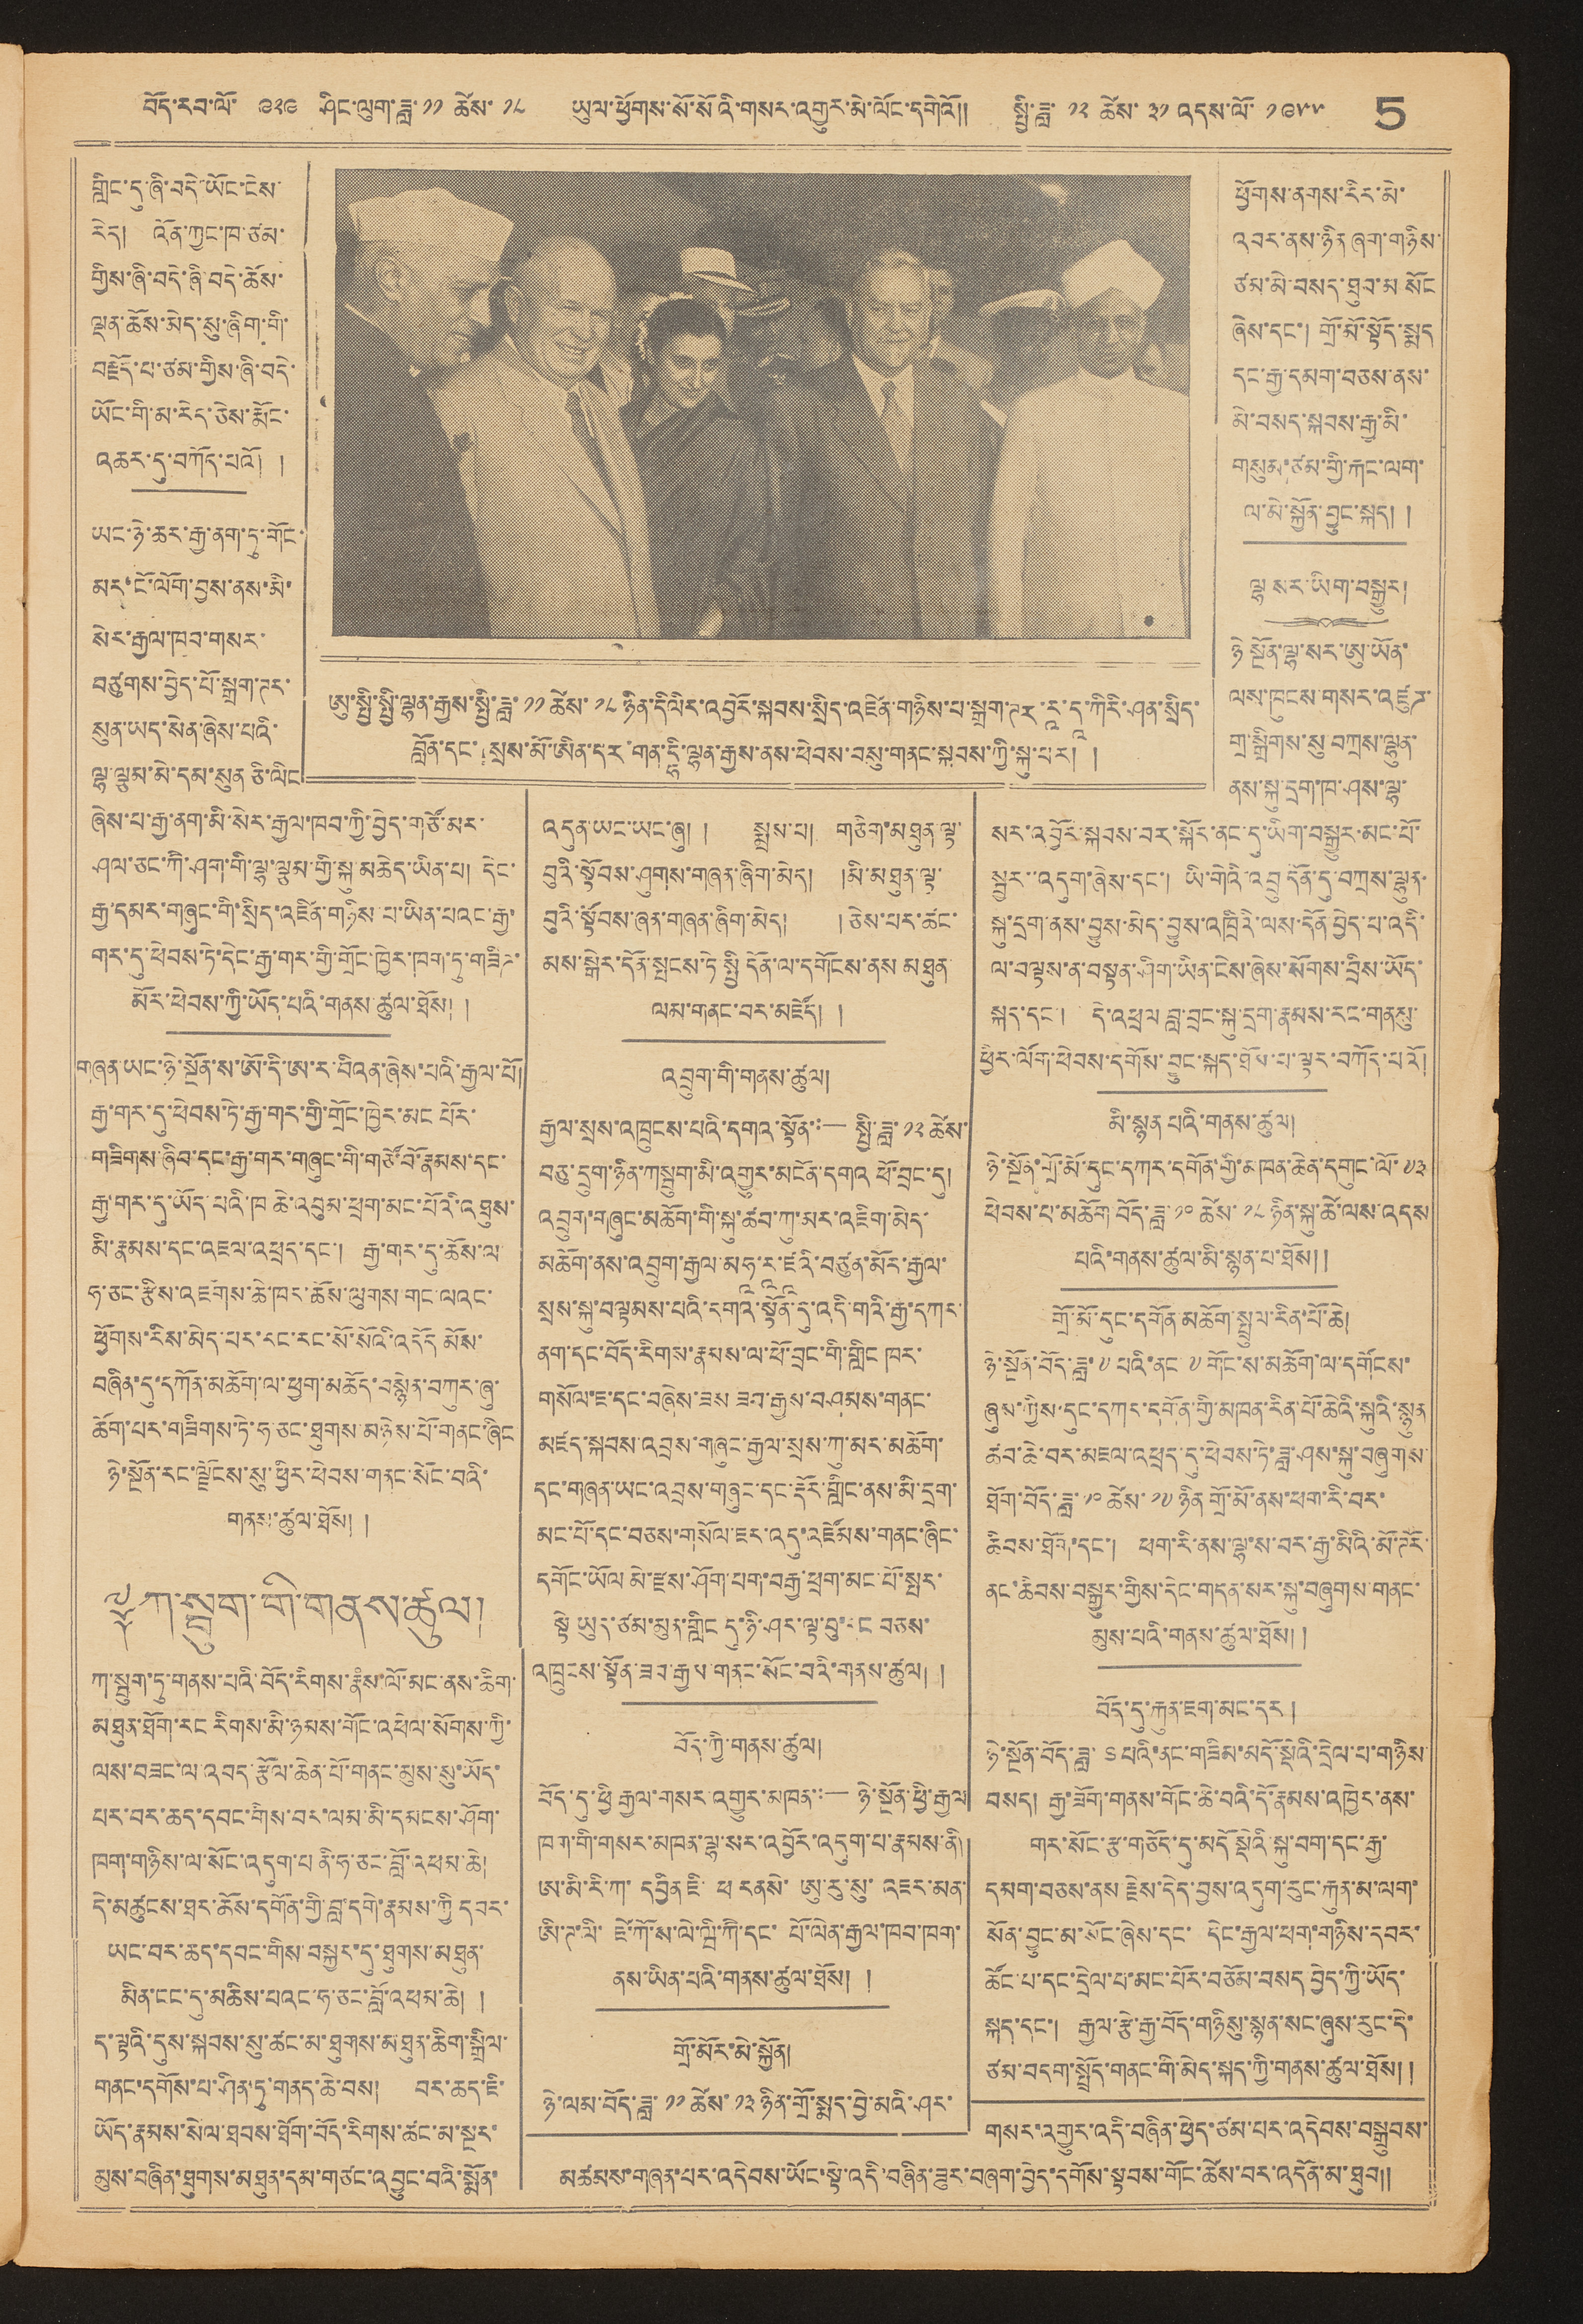བོད་རབ་ལོ་ ༩༢༩ ཤིང་ལུག་ཟླ་ ༡༡ ཚེས་ ༡༨ ཡུལ་ཕྱོགས་སོ་སོའི་གསར་འགྱུར་མེ་ལོང་དགེའོ།།  སྤྱི་ཟླ་ ༡༢ ཚེས་ ༣༡ འདས་ལོ་ ༡༩༥༥ 5
གླིང་དུ་ཞི་བདེ་ཡོང་ངེས་
རེད། འོན་ཀྱང་ཁ་ཙམ་
གྱིས་ཞི་བདེ་ཞི་བདེ་ཆོས་
ལྡན་ཆོས་མེད་སུ་ཞིག་གི་
བརྗོད་པ་ཙམ་གྱིས་ཞི་བདེ་
ཡོང་གི་མ་རེད་ཅེས་རྨོང་
འཆར་དུ་བཀོད་པའོ།  །
ཡང་ཉེ་ཆར་རྒྱ་ནག་ཏུ་གོང་
མར་ངོ་ལོག་བྱས་ནས་མི་
སེར་རྒྱལ་ཁབ་གསར་
བཙུགས་བྱེད་པོ་སྒྲག་ཊར་
སུན་ཡད་སེན་ཞེས་པའི་
ལྷ་ལྕམ་མེ་དམ་སུན ཅི་ལིང
ཞེས་པ་རྒྱ་ནག་མི་སེར་རྒྱལ་ཁབ་ཀྱི་བྱེད་གཙོ་མར་
ཤལ་ཅང་ཀཻ་ཤག་གི་ལྷ་ལྕམ་གྱི་སྐུ་མཆེད་ཡིན་པ། དེང་
རྒྱ་དམར་གཞུང་གི་སྲིད་འཛིན་གཉིས་པ་ཡིན་པའང་རྒྱ་
གར་དུ་ཕེབས་ཏེ་དེང་རྒྱ་གར་གྱི་གྲོང་ཁྱེར་ཁག་ཏུ་གཟིཌ་
མོར་ཕེབས་ཀྱི་ཡོད་པའི་གནས་ཚུལ་ཐོས། །
གཞན་ཡང་ཉེ་སྔོན་ས་ཨོ་དི་ཨ་ར་བིའན་ཞེས་པའི་རྒྱལ་པོ།
རྒྱ་གར་དུ་ཕེབས་ཏེ་རྒྱ་གར་གྱི་གྲོང་ཁྱེར་མང པོར་
གཟིགས་ཞིབ་དང་རྒྱ་གར་གཞུང་གི་གཙོ་བོ་རྣམས་དང་
རྒྱ་གར་དུ་ཡོད་པའི་ཁ ཆེ་འབུམ་ཕྲག་མང་པོའི་འཐུས་
མི་རྣམས་དང་འཇལ་འཕྲད་དང་། རྒྱ་གར་དུ་ཆོས་ལ་
ཧ་ཅང་རྩིས་འཇོགས་ཆེ་ཁར་ཆོས་ལུགས་གང་ལའང་
ཕྱོགས་རིས་མེད་པར་རང་རང་སོ་སོའི་འདོད མོས་
བཞིན་དུ་དཀོན་མཆོག་ལ་ཕྱག་མཆོད་བསྙེན་བཀུར་ཞུ་
ཆོག་པར་གཟིགས་ཏེ་ཧ་ཅང་ཐུགས་མཉེས་པོ་གནང་ཞིང
ཉེ་སྔོན་རང་ལྗོངས་སུ་ཕྱིར་ཕེབས་གནང་སོང་བའི་
གནས་ཚུལ་ཐོས། །
༈ ཀ་སྦུག་གི་གནས་ཚུལ།།
ཀ་སྦུག་ཏུ་གནས་པའི་བོད་རིགས་རྣཾས་ལོ་མང་ནས་ཆིག་
མཐུན་ཐོག་རང རིགས་མི་ཉམས་གོང་འཕེལ་སོགས་ཀྱི་
ལས་བཟང་ལ་འབད་རྩོལ་ཆེན་པོ་གནང་མུས་སུ་ཡོད་
པར་བར་ཆད་དབང་གིས་བར་ལམ་མི་དམངས་ཤོག་
ཁག་གཉིས་ལ་སོང་འདུག་པ ནི་ཧ་ཅང་བློ་འཕམ་ཆེ།
དེ་མཚུངས་ཐར་ཆོས་དགོན་གྱི་བླ་དགེ་རྣམས་ཀྱི དབར་
ཡང་བར་ཆད་དབང་གིས་བསྐྱར་དུ་ཐུགས་མཐུན་
མིན་ངང་དུ་མཆིས་པའང་ཧ་ཅང་བློ་འཕམ་ཆེ། །
ད་ལྟའི་དུས་སྐབས་སུ་ཚང་མ་ཐུགས་མཐུན་ཆིག་སྒྲིལ་
གནང་དགོས་པ་ཤིན་ཏུ་གནད་ཆེ་བས། བར་ཆད་ཇི་
ཡོད་རྣམས་སེལ་ཐབས་ཐོག་བོད་རིགས་ཚང་མ་སྔར་
མུས་བཞིན་ཐུགས་མཐུན་དམ་གཙང་འབྱུང་བའི་སྨོན་
འདུན་ཡང་ཡང་ཞུ། །     སྨྲས་པ།  གཅིག་མཐུན་ལྟ་
བུའི་སྟོབས་ཤུགས་གཞན་ཞིག་མེད།   །མི་མཐུན་ལྟ་
བུའི་སྟོབས་ཞན་གཞན་ཞིག་མེད།    ། ཅེས་པར་ཚང་
མས་སྒེར་དོན་སྤངས་ཏེ་སྤྱི དོན་ལ་དགོངས་ནས མཐུན་
ལམ་གནང་བར་མཛེད།  །
འབྲུག་གི་གནས་ཚུལ།།
རྒྱལ་སྲས་འཁྲུངས་པའི་དགའ་སྟོན་:— སྤྱི་ཟླ་ ༡༢ ཚེས་
བཅུ་དྲུག་ཉིན་ཀ སྦུག་མི་འགྱུར་མངོན་དགའ ཕོ་བྲང་དུ།
འབྲུག་གཞུང་མཆོག་གི་སྐུ་ཚབ་ཀུ་མར་འཇིག་མེད་
མཆོག་ནས་འབྲུག་རྒྱལ་མ ཧཱ་རཱ་ཛཱའི་བཙུན་མོར་རྒྱལ་
སྲས་སྐུ་བལྟམས་པའི་དགའ་སྟོན་དུ་འདི་གའི་རྒྱ་དཀར་
ནག་དང་བོད་རིགས་རྣམས་ལ་ཕོ་བྲང་གི་གླིང ཁར་
གསོལ་ཇ་དང་བཞེས་ཟས ཟབ་རྒྱས་བཤམས་གནང་
མཛད་སྐབས་འབྲས་གཞུང་རྒྱལ་སྲས་ཀུ་མར་མཆོག་
དང་གཞན་ཡང་འབྲས་གཞུང་དང་རྡོར་གླིང་ནས་མི་དྲག་
མང་པོ་དང་བཅས་གསོལ་ཇར་འདུ་འཛོམས་གནང་ཞིང་
དགོང་ཡོལ མེ་རྫས་ཤོག་པག་བརྒྱ་ཕྲག་མང་པོ་སྤར་
སྟེ ཡུད་ཙམ་མུན་གླིང དུ་ཉི་ཤར་ལྟ་བུ་དང བཅས་
འཁྲུངས་སྟོན་ཟབ་རྒྱས་གནང་སོང་བའི་གནས་ཚུལ།  །
བོད་ཀྱི་གནས་ཚུལ།
བོད་དུ་ཕྱི རྒྱལ་གསར་འགྱུར་མཁན་:— ཉེ་སྔོན་ཕྱི་རྒྱལ
ཁག་གི་གསར་མཁན་ལྷ་སར་འབྱོར་འདུག་པ་རྣམས་ནི།
ཨ་མི་རི་ཀ་ དབྱིན ཇི་ ཕ རནསེ་ ཨུ་རུ་སུ་ འཇར་མན་
ཨི་ཊ་ལི་ ཛེ་ཀོ་ས་ལེ་ཝི་ཀཻ་དང་ པོ་ལེན་རྒྱལ་ཁབ་ཁག་
ནས་ཡིན་པའི་གནས་ཚུལ་ཐོས། །
གྲོ་མོར་མེ་སྐྱོན།
ཉེ་ལམ་བོད་ཟླ་ ༡༡ ཚེས་ ༡༣ ཉིན་གྲོ་སྨད་བྱེ་མའི་ཤར་
ཕྱོགས་ནགས་རིར་མེ་
འབར་ནས་ཉིན ཞག་གཉིས་
ཙམ་མེ་བསད་ཐུབ་མ སོང
ཞེས་དང་། གྲོ་མོ་སྟོད་སྨད
དང་རྒྱ་དམག་བཅས་ནས་
མེ་བསད་སྐབས་རྒྱ་མི་
གསུམ་ཙམ་གྱི་རྐང་ལག་
ལ་མེ་སྐྱོན་བྱུང་སྐད། །
ཨུ་སྤྱི་སྤྱི་ལྷན་རྒྱས་སྤྱི་ཟླ་ ༡༡ ཚེས་ ༡༨ ཉིན་དི ལིར་འབྱོར་སྐབས་སྲིད་འཛིན་གཉིས་པ་སྒྲག་ཊར་རཱ་དཱ་ཀིརི་ཤན་སྲིད་
བློན་དང་། སྲས་མོ་ཨིན་དར་གན་དྷི་ལྷན་རྒྱས་ནས་ཕེབས་བསུ་གནང་སྐབས་ཀྱི་སྐུ་པར། །
ལྷ སར་ཡིག་བསྒྱུར།
ཉེ སྔོན་ལྷ་སར་ཨུ་ཡོན་
ལས་ཁུངས་གསར་འཛུཌ་
གྲ་སྒྲིགས་སུ་བཀྲས་ལྷུན་
ནས་སྐུ་དྲག་ཁ་ཤས་ལྷ་
སར་འབྱོར་སྐབས་བར་སྐོར་ནང་དུ་ཡིག་བསྒྱུར་མང་པོ་
སྦྱར་་འདུག་ཞེས་དང་། ཡི་གེའི་འབྲུ དོན་དུ་བཀྲས་ལྷུན་
སྐུ་དྲག་ནས་བྱུས་མེད་བྱུས་འཁྲིའི་ལས་དོན་བྱེད་པ་འདི་
ལ་བལྟས་ན་བསྟན་ཤིག་ཡིན་ངེས་ཞེས་སོགས་བྲིས་ཡོད་
སྐད་དང་། དེ་འཕྲལ བླ་བྲང་སྐུ་དྲག་རྣམས་རང་གནསུ་
ཕྱིར་ལོག་ཕེབས་དགོས་བྱུང་སྐད་ཐོས་པ་ལྟར་བཀོད་པའོ།
མི་སྙན་པའི་གནས་ཚུལ།
ཉེ་སྔོན་གྲོ་མོ་དུང་དཀར་དགོན་གྱི་མཁན་ཆེན་དགུང་ལོ་ ༧༣
ཕེབས་པ་མཆོག་བོད་ཟླ་ ༡༠ ཚེས་ ༡༨ ཉིན་སྐུ་ཚེ་ལས་འདས
པའི་གནས་ཚུལ་མི་སྙན་པ་ཐོས།།
གྲོ་མོ་དུང་དགོན་མཆོག་སྤྲུལ་རིན་པོ་ཆེ།
ཉེ་སྔོན་བོད་ཟླ་ ༧ པའི་ནང ༸གོང་ས་མཆོག་ལ་དགོངས་
ཞུས་ཀྱིས་དུང་དཀར་དགོན་གྱི་མཁན་རིན་པོ་ཆེའི་སྐུའི་སྙུན
ཚབ་ཆེ་བར་མཇལ་འཕྲད་དུ་ཕེབས་ཏེ་ཟླ་ཤས་སྐུ་བཞུགས་
ཐོག་བོད་ཟླ་ ༡༠ ཚེས་ ༡༧ ཉིན གྲོ་མོ་ནས་ཕག་རི་བར་
ཆིབས་ཐོག་དང་། ཕག་རི་ནས་ལྷ་ས་བར་རྒྱ་མིའི་མོ་ཊོར་
ནང་ཆིབས་བསྒྱུར་གྱིས་དེང་གདན་སར་སྐུ་བཞུགས་གནང་
མུས་པའི་གནས་ཚུལ་ཐོས། །
བོད་དུ་རྐུན་ཇག་མང་དར །
ཉེ་སྔོན་བོད་ཟླ་ ༦ པའི་ནང་གཟིམ་མདོ་སྡེའི་དྲེལ་པ་གཉིས་
བསད། རྒྱ་ཟོག་གནས་གོང་ཆེ་བའི་དོ་རྣམས་འཁྱེར་ནས་
གར་སོང་རྩ་གཅོད་དུ་མདོ སྡེའི་སྐུ་བག་དང་རྒྱ་
དམག་བཅས་ནས རྗེས་དེད་བྱས་འདུག་རུང་རྐུན་མ་ལག་
སོན་བྱུང་མ་སོང་ཞེས་དང་ དེང་རྒྱལ་ཕག་གཉིས་དབར་
ཚོང་པ་དང་དྲེལ་པ་མང་པོར་བཅོམ་བསད་བྱེད་ཀྱི་ཡོད་
སྐད་དང་། རྒྱལ་རྩེ་རྒྱ་བོད་གཉིསུ་སྙན་སང་ཞུས་རུང་དེ་
ཙམ་བདག་སྤྲོད་གནང་གི་མེད་སྐད་ཀྱི་གནས་ཚུལ་ཐོས། །
གསར་འགྱུར་འདི་བཞིན་ཕྱེད་ཙམ་པར་འདེབས་བསྒྲུབས་
མཚམས་གཞན་པར་འདེབས་ཡོང་སྟེ་འདི་བཞིན་ཟུར་བཞག་བྱེད་དགོས་སྟབས་གོང་ཚེས་བར་འདོན་མ་ཐུབ།།
